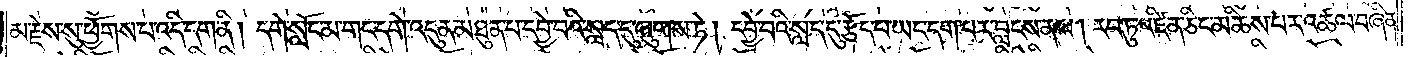མ་རྗེས་སུ་ཕྱོགས་པ་འདི་དག་ནི། དགེ་སློང་མ་གང་དགེ་འདུན་མཐུན་པ་དབྱེ་བའི་སླད་དུ་ཞུགས་ཏེ། དབྱེ་བའི་སླད་དུ་རྩོད་པ་ཡང་དག་པར་བླངས་ནས། རབ་ཏུ་འཛིན་ཅིང་མཆིས་པར་འཚལ་བཞིན་
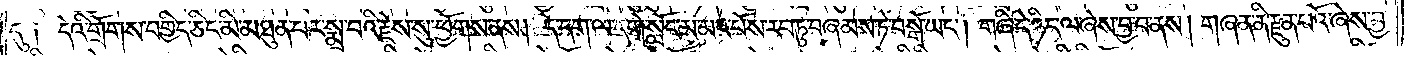དུ༑ དེའི་གྲོགས་བགྱིད་ཅིང་མི་མཐུན་པར་སྨྲ་བའི་རྗེས་སུ་ཕྱོགས་ནས། དེ་དག་ལ་དགེ་སློང་མ་མང་པོས་རབ་ཏུ་བཞམས་ཏེ་བསྒོ་ཡང༌། གཞི་དེ་ཉིད་ལ་ཞེས་བྱ་བ་ནས། གཞན་ནི་རྫུན་པའོ་ཞེས་བྱ་
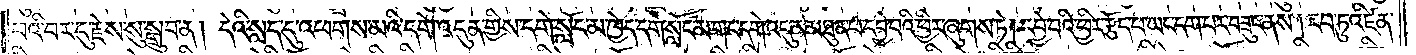བའི་བར་དུ་རྗེས་སུ་སྒྲུབ་ན། དེའི་སླད་དུ་འཕགས་མའི་དགེ་འདུན་གྱིས་དགེ་སློང་མ་ཁྱེད་དགེ་སློང་མ་གང་དགེ་འདུན་མཐུན་པ་དབྱེ་བའི་ཕྱིར་ཞུགས་ཏེ། དབྱེ་བའི་ཕྱིར་རྩོད་པ་ཡང་དག་པར་བཟུང་ནས། རབ་ཏུ་འཛིན་
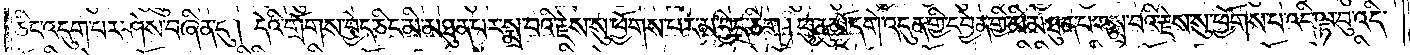ཅིང་འདུག་པར་ཤེས་བཞིན་དུ། དེའི་གྲོགས་བྱེད་ཅིང་མི་མཐུན་པར་སྨྲ་བའི་རྗེས་སུ་ཕྱོགས་པར་མ་བྱེད་ཅིག །ཕུ་ནུ་མོ་དགེ་འདུན་གྱི་དབྱེན་གྱི་མི་མཐུན་པར་སྨྲ་བའི་རྗེས་སུ་ཕྱོགས་པ་འདི་ལྟ་བུ་འདི་
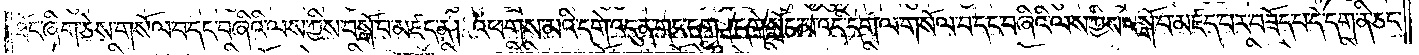ཐོང་ཞིག་ཅེས་གསོལ་བ་དང་བཞིའི་ལས་ཀྱིས་བསྒོ་བ་མཛད་ན། འཕགས་མའི་དགེ་འདུན་གང་དག །དགེ་སློང་མ་འདི་དག་ལ་གསོལ་བ་དང་བཞིའི་ལས་ཀྱིས་བསྒོ་བ་མཛད་པར་བཟོད་པ་དེ་དག་ནི་ཅང་
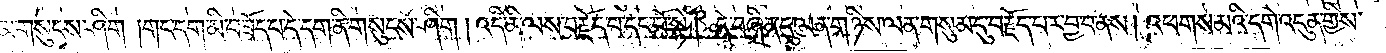མ་གསུངས་ཤིག །གང་དག་མི་བཟོད་པ་དེ་དག་ནི་གསུངས་ཤིག །འདི་ནི་ལས་བརྗོད་པ་དང་པོ་སྟེ། དེ་བཞིན་དུ་ལན་གཉིས་ལན་གསུམ་དུ་བརྗོད་པར་བྱ་བ་ནས། འཕགས་མའི་དགེ་འདུན་གྱིས་
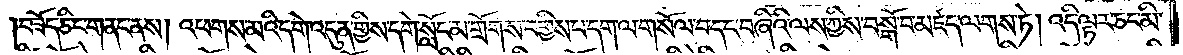བཟོད་ཅིང་གནང་ནས། འཕགས་མའི་དགེ་འདུན་གྱིས་དགེ་སློང་མ་གྲོགས་བགྱིས་པ་དག་ལ་གསོལ་བ་དང་བཞིའི་ལས་ཀྱིས་བསྒོ་བ་མཛད་ལགས་ཏེ། འདི་ལྟར་ཅང་མི་
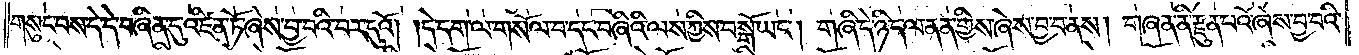གསུང་བས་དེ་དེ་བཞིན་དུ་འཛིན་ཏོ་ཞེས་བྱ་བའི་བར་དུའོ། །དེ་དག་ལ་གསོལ་བ་དང་བཞིའི་ལས་ཀྱིས་བསྒོ་ཡང༌། གཞི་དེ་ཉིད་ལ་ནན་གྱིས་ཞེས་བྱ་བ་ནས། གཞན་ནི་རྫུན་པའོ་ཞེས་བྱ་བའི་
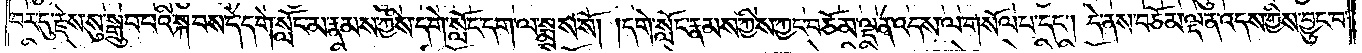བར་དུ་རྗེས་སུ་སྒྲུབ་པའི་སྐབས་དེ་དགེ་སློང་མ་རྣམས་ཀྱིས་དགེ་སློང་དག་ལ་སྨྲས་སོ། །དགེ་སློང་རྣམས་ཀྱིས་ཀྱང་བཅོམ་ལྡན་འདས་ལ་གསོལ་པ་དང༌། དེ་ནས་བཅོམ་ལྡན་འདས་ཀྱིས་བྱུང་བ་
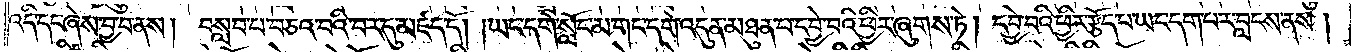འདི་དང་ཞེས་བྱ་བ་ནས། བསླབ་པ་བཅའ་བའི་བར་དུ་མཛད་དོ། །ཡང་དགེ་སློང་མ་གང་དགེ་འདུན་མཐུན་པ་དབྱེ་བའི་ཕྱིར་ཞུགས་ཏེ། དབྱེ་བའི་ཕྱིར་རྩོད་པ་ཡང་དག་པར་བླངས་ནས།
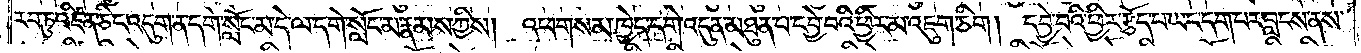རབ་ཏུ་འཛིན་ཅིང་འདུག་ན་དགེ་སློང་མ་དེ་ལ་དགེ་སློང་མ་རྣམས་ཀྱིས། འཕགས་མ་ཁྱེད་དགེ་འདུན་མཐུན་པ་དབྱེ་བའི་ཕྱིར་མ་འཇུག་ཅིག། དབྱེ་བའི་ཕྱིར་རྩོད་པ་ཡང་དག་པར་བླངས་ནས་
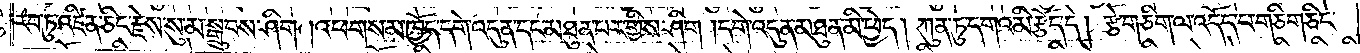རབ་ཏུ་འཛིན་ཅིང་རྗེས་སུ་མ་སྒྲུབས་ཤིག །འཕགས་མ་ཁྱོད་དགེ་འདུན་དང་མཐུན་པར་གྱིས་ཤིག །དགེ་འདུན་མཐུན་མི་ཕྱེད། ཀུན་ཏུ་དགའ་མི་རྩོད་དེ། རྩེ་གཅིག་ལ་འདོད་པ་གཅིག་ཅིང་
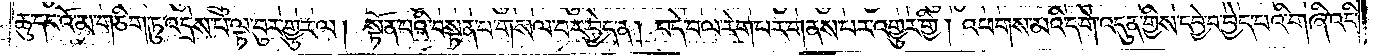ཆུ་དང་འོ་མ་གཅིག་ཏུ་འདྲེས་པ་ལྟ་བུར་གྱུར་ལ། སྟོན་པའི་བསྟན་པ་གསལ་བར་བྱེད་ན། བདེ་བ་ལ་རེག་པར་གནས་པར་འགྱུར་གྱི། འཕགས་མའི་དགེ་འདུན་གྱིས་དབྱེ་བ་བྱེད་པའི་གཞི་འདི་
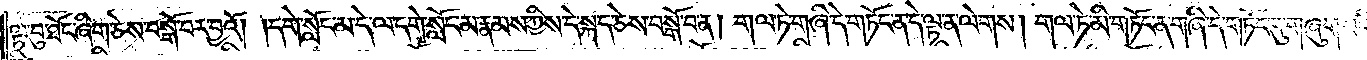ལྟ་བུ་ཐོང་ཞིག་ཅེས་བསྒོ་བར་བྱའོ། །དགེ་སློང་མ་དེ་ལ་དགེ་སློང་མ་རྣམས་ཀྱིས་དེ་སྐད་ཅེས་བསྒོ་བ་ན། གལ་ཏེ་གཞི་དེ་གཏོང་ན་དེ་ལྟ་ན་ལེགས། གལ་ཏེ་མི་གཏོང་ན་གཞི་དེ་གཏོང་དུ་གཞུག་བའི་
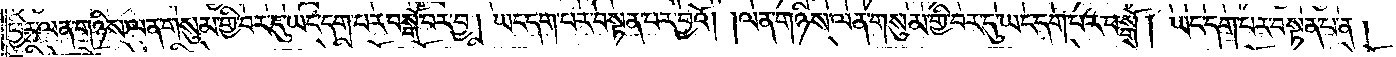ཕྱིར་ལན་གཉིས་ལན་གསུམ་གྱི་བར་དུ་ཡང་དག་པར་བསྒོ་བར་བྱ། ཡང་དག་པར་བསྟན་པར་བྱའོ། །ལན་གཉིས་ལན་གསུམ་གྱི་བར་དུ་ཡང་དག་པར་བསྒོ། ཡང་དག་པར་བསྟན་པ་ན།
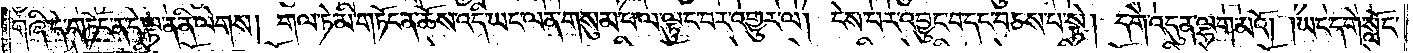གཞི་དེ་གཏོང་ན་དེ་ལྟ་ན་ནི་ལེགས། གལ་ཏེ་མི་གཏོང་ན་ཆོས་འདི་ཡང་ལན་གསུམ་པ་ལ་ལྟུང་བར་འགྱུར་ལ། ངེས་པར་འབྱུང་བ་དང་བཅས་པ་སྟེ། དགེ་འདུན་ལྷག་མའོ། །ཡང་དགེ་སློང་
